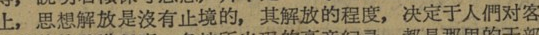上，思想解放是沒有止境的，其解放的程度，决定于人們对客
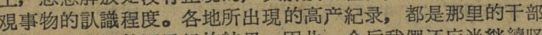覌事物的认識程度。各地所出現的高产紀录，都是那里的干部
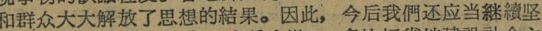和群众大大解放了思想的結果。因此，今后我們还应当継續坚
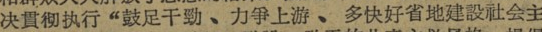决貫彻执行 “鼓足干勁、力爭上游、多快好省地建設社会主
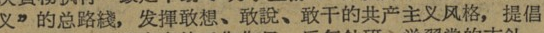义” 的总路綫，发挥敢想、敢說、敢干的共产主义风格，提倡
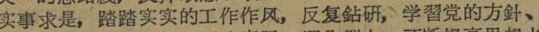实事求是，踏踏实实的工作作风，反复钻研，学習党的方針、
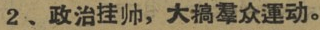2、政治挂帅，大搞羣众運动。
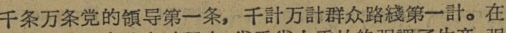千条万条党的領导第一条，千計万計群众路綫第一計。在
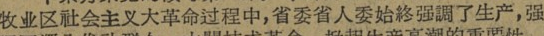牧业区社会主义大革命过程中，省委省人委始終强調了生产，强
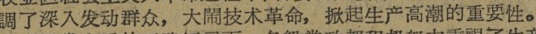調了深入发动群众，大鬧技术革命，掀起生产高潮的重要性。
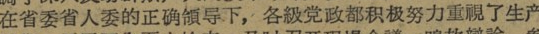在省委省人委的正确領导下，各級党政都积极努力重視了生产
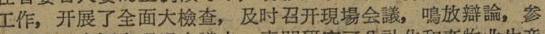工作，开展了全面大檢查，及时召开現場会議，鳴放辯論，参
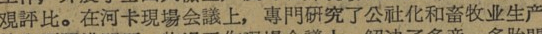覌評比。在河卡現場会議上，專門研究了公社化和畜牧业生产
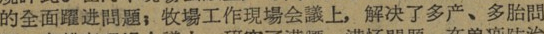的全面躍进問題；牧場工作現場会議上，解决了多产、多胎問
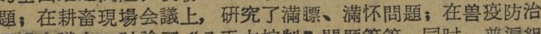題；在耕畜現場会議上，研究了滿膘、滿怀問題；在兽疫防治
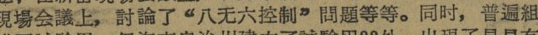現場会議上，討論了“八无六控制”問題等等。同时，普遍組
